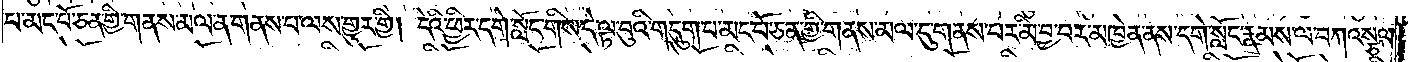པ་མང་པོ་ཅན་གྱི་གནས་མལ་ན་གནས་པ་ལས་གྱུར་གྱི། དེའི་ཕྱིར་དགེ་སློང་གིས་དེ་ལྟ་བུའི་གདུག་པ་མང་པོ་ཅན་གྱི་གནས་མལ་དུ་གནས་པར་མི་བྱ་བར་མཁྱེན་ནས་དགེ་སློང་རྣམས་ལ་བཀའ་སྩལ་
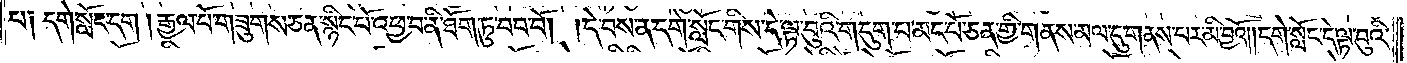པ། དགེ་སློང་དང༌། རྒྱལ་པོ་གཟུགས་ཅན་སྙིང་པོ་འཕྱ་བ་ནི་ཐོག་ཏུ་བབ་བོ། །དེ་བས་ན་དགེ་སློང་གིས་དེ་ལྟ་བུའི་གདུག་པ་མང་པོ་ཅན་གྱི་གནས་མལ་དུ་གནས་པར་མི་བྱའོ། །དགེ་སློང་དེ་ལྟ་བུའི་
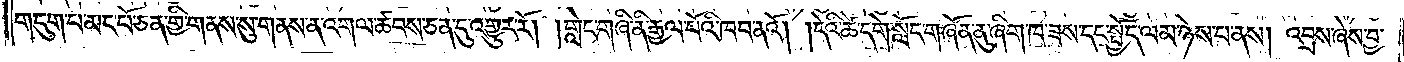གདུག་པ་མང་པོ་ཅན་གྱི་གནས་སུ་གནས་ན་འགལ་ཚབས་ཅན་དུ་འགྱུར་རོ། །གླེང་གཞི་ནི་རྒྱལ་པོའི་ཁབ་ནའོ། །དེའི་ཚེ་དགེ་སློང་གཞོན་ནུ་ཞིག་ཁ་ཟས་དང་སྤྱོད་ལམ་ཉེས་པ་ནས། འབྲས་ཞེས་བྱ་
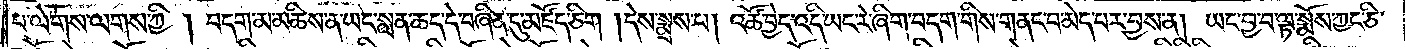པ་ལེགས་ལགས་ཀྱི་།བདག་མ་མཆིས་ན་ཡང་སླན་ཆད་དེ་བཞིན་དུ་མཛོད་ཅིག །དེས་སྨྲས་པ། འཚོ་བྱེད་འདི་ཡང་རེ་ཞིག་བདག་གིས་གནང་བ་མེད་པར་བྱས་ན། ཡང་བྱ་བ་ལྟ་སྨོས་ཀྱང་ཅི་
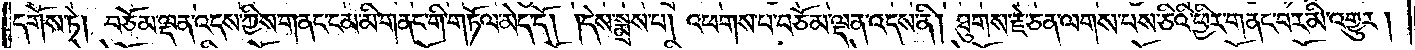དགོས་ཏེ། བཅོམ་ལྡན་འདས་ཀྱིས་གནང་ངམ་མི་གནང་གི་གཏོལ་མེད་དོ། །དེས་སྨྲས་པ། འཕགས་པ་བཅོམ་ལྡན་འདས་ནི། ཐུགས་རྗེ་ཅན་ལགས་པས་ཅིའི་ཕྱིར་གནང་བར་མི་འགྱུར།
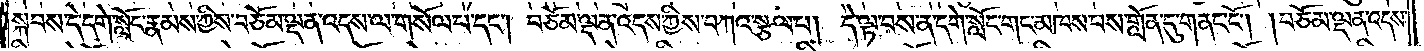སྐབས་དེ་དགེ་སློང་རྣམས་ཀྱིས་བཅོམ་ལྡན་འདས་ལ་གསོལ་པ་དང༌། བཅོམ་ལྡན་འདས་ཀྱིས་བཀའ་སྩལ་པ། དེ་ལྟ་བས་ན་དགེ་སློང་གང་མཁས་པས་གློན་དུ་གནང་ངོ༌། །བཅོམ་ལྡན་འདས་
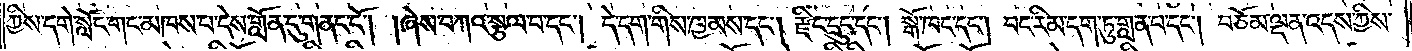ཀྱིས་དགེ་སློང་གང་མཁས་པ་དེས་གློན་དུ་གནང་ངོ༌། །ཞེས་བཀའ་སྩལ་པ་དང༌། དེ་དག་གིས་ཁྱམས་དང༌། རྫིང་དྲུང་དང༌། སྒོ་ཁང་དང༌། བང་རིམ་དག་ཏུ་གླན་པ་དང༌། བཅོམ་ལྡན་འདས་ཀྱིས་
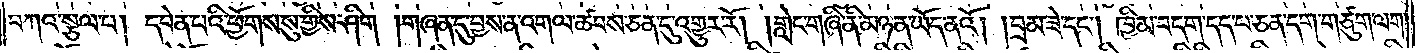བཀའ་སྩལ་པ། དབེན་པའི་ཕྱོགས་སུ་གྱིས་ཤིག །གཞན་དུ་བྱས་ན་འགལ་ཚབས་ཅན་དུ་འགྱུར་རོ། །གླེང་གཞི་ནི་མཉན་ཡོད་ནའོ། །བྲམ་ཟེ་དང༌། ཁྱིམ་བདག་དད་བ་ཅན་དག་གཙུག་ལག་
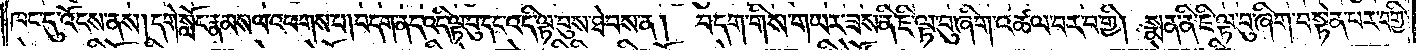ཁང་དུ་འོངས་ནས། དགེ་སློང་རྣམས་ལ་འཕགས་པ། བདག་ནད་འདི་ལྟ་བུ་དང་འདི་ལྟ་བུས་ཐེབས་ན། བདག་གིས་གཡར་ཟས་ནི་ཇི་ལྟ་བུ་ཞིག་འཚལ་བར་བགྱི། སྨན་ནི་ཇི་ལྟ་བུ་ཞིག་བསྟེན་པར་བགྱི་
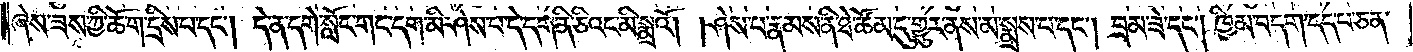ཞེས་ཟས་ཀྱི་ཆོག་དྲིས་པ་དང༌། དེ་ན་དགེ་སློང་གང་དག་མི་ཤེས་པ་དེ་དག་ནི་ཅིའང་མི་སྨྲའོ། །ཤེས་པ་རྣམས་ནི་ཐེ་ཚོམ་དུ་གྱུར་ནས་མ་སྨྲས་པ་དང༌། བྲམ་ཟེ་དང༌། ཁྱིམ་བདག་དད་པ་ཅན་
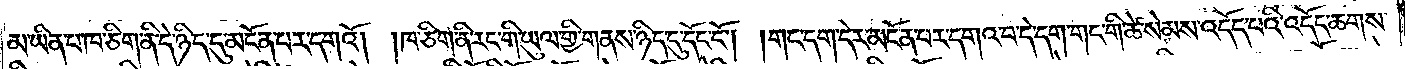མ་ཡིན་པ་ཁ་ཅིག་ནི་དེ་ཉིད་དུ་མངོན་པར་དགའོ། །ཁ་ཅིག་ནི་རང་གི་ཡུལ་གྱི་གནས་ཉིད་དུ་དོང་ངོ༌། །གང་དག་དེར་མངོན་པར་དགའ་བ་དེ་དག་གང་གི་ཚེ་སེམས་འདོད་པའི་འདོད་ཆགས་
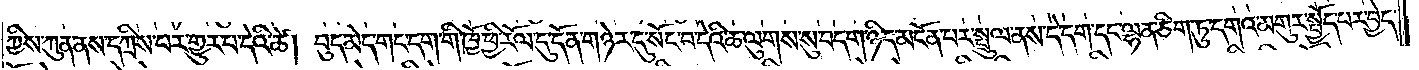ཀྱིས་ཀུན་ནས་དཀྲིས་པར་གྱུར་པ་དེའི་ཚེ། བུད་མེད་གང་དག་གི་ཁྱོ་ཕྱི་རོལ་དུ་དོན་གཉེར་དུ་སོང་བ་དེའི་ཆ་ལུགས་སུ་བདག་ཉིད་མངོན་པར་སྤྲུལ་ནས་དེ་དག་དང་ལྷན་ཅིག་ཏུ་དགའ་མགུར་སྤྱོད་པར་བྱེད་
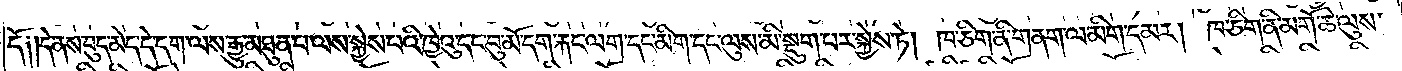དོ༑ །དེ་ནས་བུད་མེད་དེ་དག་ལས་རྒྱུ་མཐུན་པ་ལས་སྐྱེས་པའི་ཁྱེའུ་དང་བུ་མོ་དག་རྐང་ལག་དང་མིག་དང་ལུས་མི་སྡུག་པར་སྐྱེས་ཏེ། ཁ་ཅིག་ནི་གནག་ལ་མིག་དམར། ཁ་ཅིག་ནི་མགོ་ཆེ་ལུས་
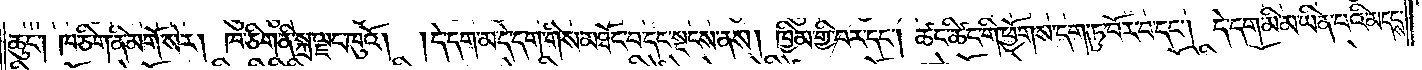ཆུང༌། ཁ་ཅིག་ནི་མགོ་སེར། ཁ་ཅིག་ནི་སྐྲ་ལྗང་ཁུའོ། །དེ་དག་མ་དེ་དག་གིས་མཐོང་བ་དང་སྡངས་ནས། ཁྱིམ་གྱི་བར་དང༌། ཚང་ཚིང་གི་ཕྱོགས་དག་ཏུ་བོར་བ་དང༌། དེ་དག་མི་མ་ཡིན་པའི་མདངས་
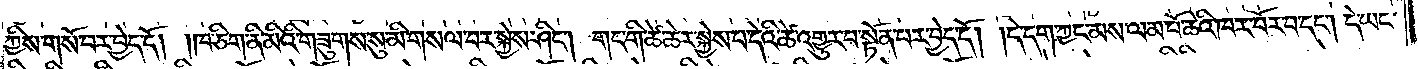ཀྱིས་གསོ་བར་བྱེད་དོ། །ཁ་ཅིག་ནི་མིའི་གཟུགས་སུ་མི་གསལ་བར་སྐྱེས་ཤིང༌། གང་གི་ཚེ་ཆེར་སྐྱེས་པ་དེའི་ཚེ་འགྱུར་བ་སྟོན་པར་བྱེད་དོ། །དེ་དག་ཀྱང་མས་ལམ་པོ་ཆེའི་ཁར་བོར་བ་དང༌། དེ་ཡང་
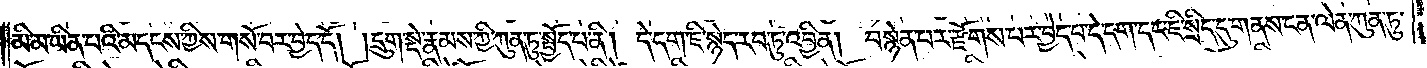མི་མ་ཡིན་པའི་མདངས་ཀྱིས་གསོ་བར་བྱེད་དོ། །དྲུག་སྡེ་རྣམས་ཀྱི་ཀུན་ཏུ་སྤྱོད་པ་ནི། དེ་དག་ཇི་སྙེད་རབ་ཏུ་འབྱིན། བསྙེན་པར་རྫོགས་པར་བྱེད་པ་དེ་དག་དང་ཇི་སྲིད་དུ་གནས་ངན་ལེན་ཀུན་ཏུ་
